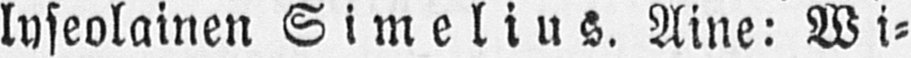lyseolainen Simelius. Aine: W i-
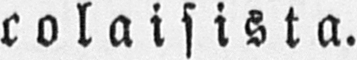colaisista.
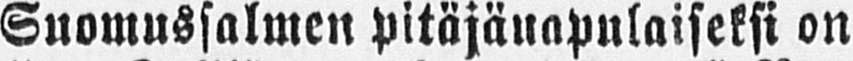Suomussalmen pitäjänapulaiseksi on
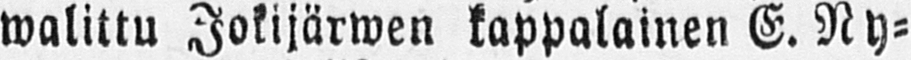walittu Jokijärwen kappalainen E. Ny-
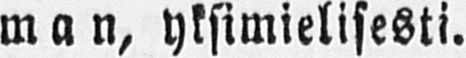man, yksimielisesti.
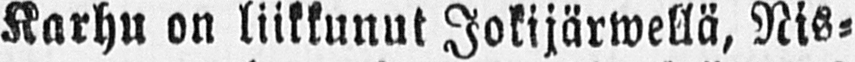Karhu on liikkunut Jokijärwellä, Nis-
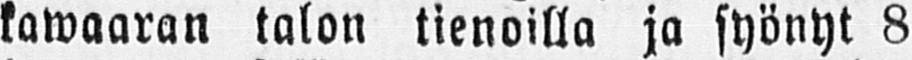kawaaran talon tienoilla ja syönyt 8
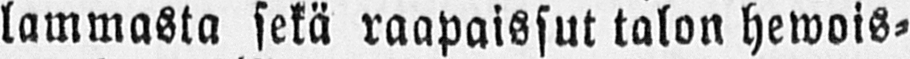lammasta sekä raapaissut talon hewois-
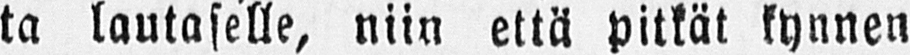ta lautaselle, niin että pitkät kynnen
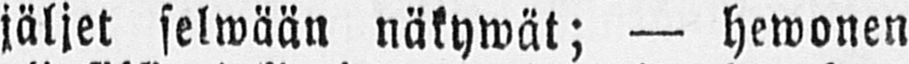jäljet selwään näkywät; — hewonen
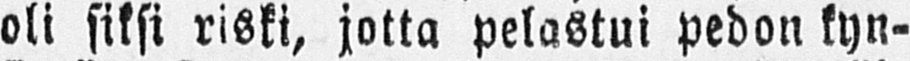oli siksi riski, jotta pelastui pedon kyn-
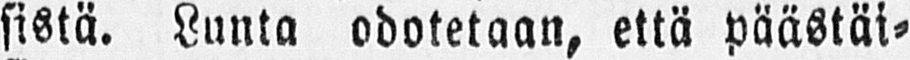sistä. Lunta odotetaan, että päästäi-
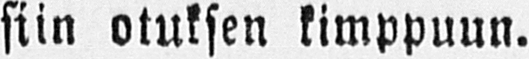siin otuksen kimppuun.
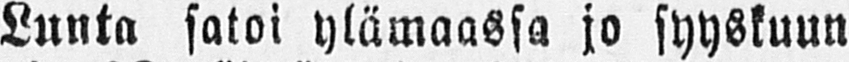Lunta satoi ylämaassa jo syyskuun
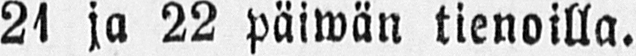21 ja 22 päiwän tienoilla.
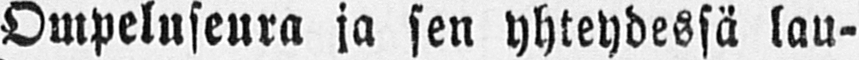Ompeluseura ja sen yhteydessä lau-
